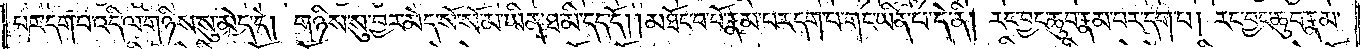པར་དག་པ་འདི་ལ་གཉིས་སུ་མེད་དེ། གཉིས་སུ་བྱར་མེད་སོ་སོ་མ་ཡིན་ཐ་མི་དད་དོ། །མཐོང་བ་པོ་རྣམ་པར་དག་པ་གང་ཡིན་པ་དེ་ནི། རང་བྱང་ཆུབ་རྣམ་པར་དག་པ། རང་བྱང་ཆུབ་རྣམ་
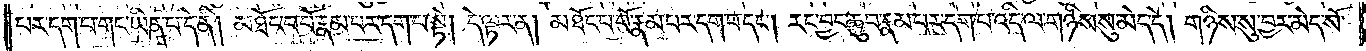པར་དག་པ་གང་ཡིན་པ་དེ་ནི། མཐོང་བ་པོ་རྣམ་པར་དག་པ་སྟེ། དེ་ལྟར་ན། མཐོང་བ་པོ་རྣམ་པར་དག་པ་དང༌། རང་བྱང་ཆུབ་རྣམ་པར་དག་པ་འདི་ལ་གཉིས་སུ་མེད་དེ། གཉིས་སུ་བྱར་མེད་སོ་
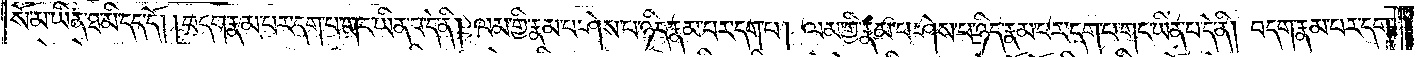སོ་མ་ཡིན་ཐ་མི་དད་དོ། །བདག་རྣམ་པར་དག་པ་གང་ཡིན་པ་དེ་ནི། ལམ་གྱི་རྣམ་པར་ཤེས་པ་ཉིད་རྣམ་པར་དག་པ། ལམ་གྱི་རྣམ་པར་ཤེས་པ་ཉིད་རྣམ་པར་དག་པ་གང་ཡིན་པ་དེ་ནི། བདག་རྣམ་པར་དག་
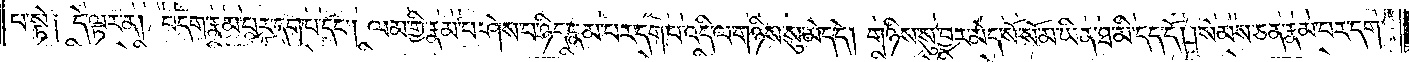པ་སྟེ༑ དེ་ལྟར་ན། བདག་རྣམ་པར་དག་པ་དང༌། ལམ་གྱི་རྣམ་པར་ཤེས་པ་ཉིད་རྣམ་པར་དག་པ་འདི་ལ་གཉིས་སུ་མེད་དེ། གཉིས་སུ་བྱར་མེད་སོ་སོ་མ་ཡིན་ཐ་མི་དད་དོ། །སེམས་ཅན་རྣམ་པར་དག་
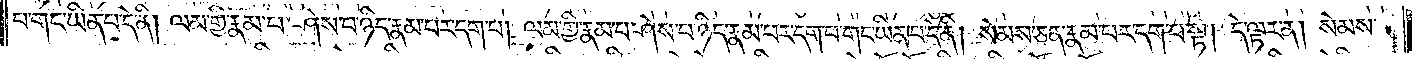པ་གང་ཡིན་པ་དེ་ནི། ལམ་གྱི་རྣམ་པ་ཤེས་པ་ཉིད་རྣམ་པར་དག་པ། ལམ་གྱི་རྣམ་པ་ཤེས་པ་ཉིད་རྣམ་པར་དག་པ་གང་ཡིན་པ་དེ་ནི། སེམས་ཅན་རྣམ་པར་དག་པ་སྟེ། དེ་ལྟར་ན། སེམས་
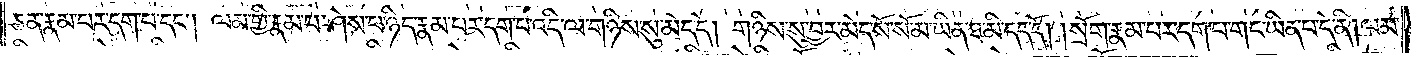ཅན་རྣམ་པར་དག་པ་དང༌། ལམ་གྱི་རྣམ་པར་ཤེས་པ་ཉིད་རྣམ་པར་དག་པ་འདི་ལ་གཉིས་སུ་མེད་དེ། གཉིས་སུ་བྱར་མེད་སོ་སོ་མ་ཡིན་ཐ་མི་དད་དོ། །སྲོག་རྣམ་པར་དག་པ་གང་ཡིན་པ་དེ་ནི། ལམ་
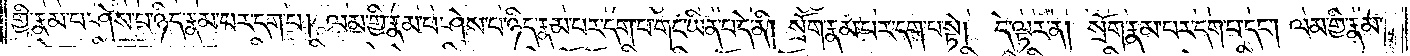གྱི་རྣམ་པ་ཤེས་པ་ཉིད་རྣམ་པར་དག་པ། ལམ་གྱི་རྣམ་པ་ཤེས་པ་ཉིད་རྣམ་པར་དག་པ་གང་ཡིན་པ་དེ་ནི། སྲོག་རྣམ་པར་དག་པ་སྟེ། དེ་ལྟར་ན་སྲོག་རྣམ་པར་དག་པ་དང༌། ལམ་གྱི་རྣམ་
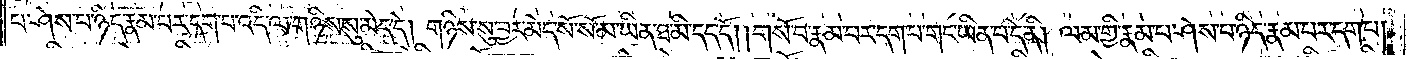པ་ཤེས་པ་ཉིད་རྣམ་པར་དག་པ་འདི་ལ་གཉིས་སུ་མེད་དེ། གཉིས་སུ་བྱར་མེད་སོ་སོ་མ་ཡིན་ཐ་མི་དད་དོ། །གསོ་བ་རྣམ་པར་དག་པ་གང་ཡིན་པ་དེ་ནི། ལམ་གྱི་རྣམ་པ་ཤེས་པ་ཉིད་རྣམ་པར་དག་པ།
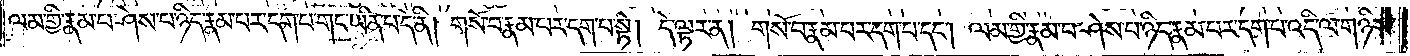ལམ་གྱི་རྣམ་པ་ཤེས་པ་ཉིད་རྣམ་པར་དག་པ་གང་ཡིན་པ་དེ་ནི། གསོ་བ་རྣམ་པར་དག་པ་སྟེ། དེ་ལྟར་ན། གསོ་བ་རྣམ་པར་དག་པ་དང༌། ལམ་གྱི་རྣམ་པ་ཤེས་པ་ཉིད་རྣམ་པར་དག་པ་འདི་ལ་གཉིས་
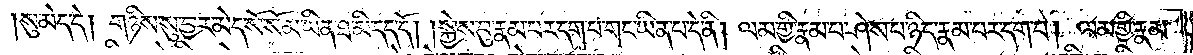སུ་མེད་དེ། གཉིས་སུ་བྱར་མེད་སོ་སོ་མ་ཡིན་ཐ་མི་དད་དོ། །སྐྱེས་བུ་རྣམ་པར་དག་པ་གང་ཡིན་པ་དེ་ནི། ལམ་གྱི་རྣམ་པ་ཤེས་པ་ཉིད་རྣམ་པར་དག་པ། ལམ་གྱི་རྣམ་
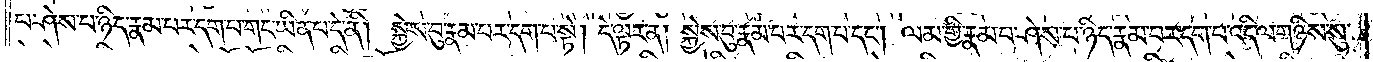པ་ཤེས་པ་ཉིད་རྣམ་པར་དག་པ་གང་ཡིན་པ་དེ་ནི། སྐྱེས་བུ་རྣམ་པར་དག་པ་སྟེ། དེ་ལྟར་ན། སྐྱེས་བུ་རྣམ་པར་དག་པ་དང༌། ལམ་གྱི་རྣམ་པ་ཤེས་པ་ཉིད་རྣམ་པར་དག་པ་འདི་ལ་གཉིས་སུ་
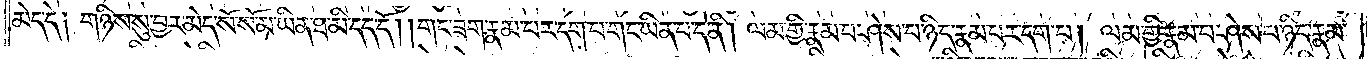མེད་དེ༑ གཉིས་སུ་བྱར་མེད་སོ་སོ་མ་ཡིན་ཐ་མི་དད་དོ། །གང་ཟག་རྣམ་པར་དག་པ་གང་ཡིན་པ་དེ་ནི། ལམ་གྱི་རྣམ་པ་ཤེས་པ་ཉིད་རྣམ་པར་དག་པ། ལམ་གྱི་རྣམ་པ་ཤེས་པ་ཉིད་རྣམ་
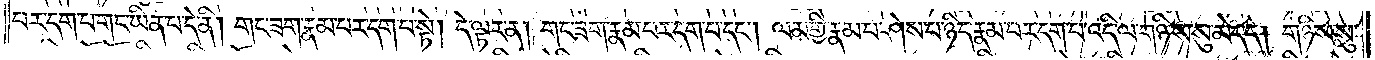པར་དག་པ་གང་ཡིན་པ་དེ་ནི། གང་ཟག་རྣམ་པར་དག་པ་སྟེ། དེ་ལྟར་ན། གང་ཟག་རྣམ་པར་དག་པ་དང༌། ལམ་གྱི་རྣམ་པ་ཤེས་པ་ཉིད་རྣམ་པར་དག་པ་འདི་ལ་གཉིས་སུ་མེད་དེ། གཉིས་སུ་
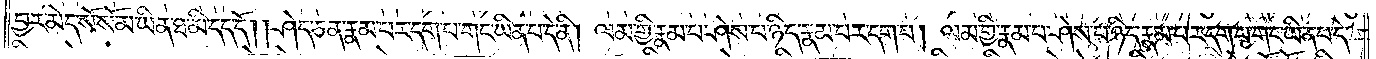བྱར་མེད་སོ་སོ་མ་ཡིན་ཐ་མི་དད་དོ། །ཤེད་ཅན་རྣམ་པར་དག་པ་གང་ཡིན་པ་དེ་ནི། ལམ་གྱི་རྣམ་པ་ཤེས་པ་ཉིད་རྣམ་པར་དག་པ། ལམ་གྱི་རྣམ་པ་ཤེས་པ་ཉིད་རྣམ་པར་དག་པ་གང་ཡིན་པ་དེ་
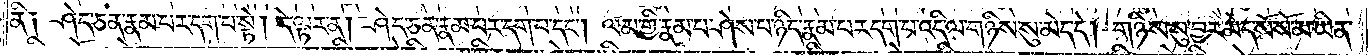ནི༑ ཤེད་ཅན་རྣམ་པར་དག་པ་སྟེ། དེ་ལྟར་ན། ཤེད་ཅན་རྣམ་པར་དག་པ་དང༌། ལམ་གྱི་རྣམ་པ་ཤེས་པ་ཉིད་རྣམ་པར་དག་པ་འདི་ལ་གཉིས་སུ་མེད་དེ། གཉིས་སུ་བྱར་མེད་སོ་སོ་མ་ཡིན་
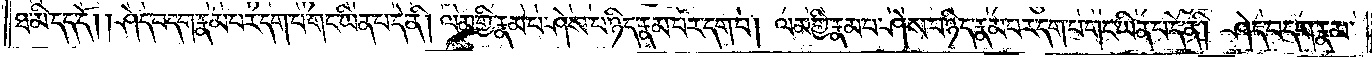ཐ་མི་དད་དོ། །ཤེད་བདག་རྣམ་པར་དག་པ་གང་ཡིན་པ་དེ་ནི། ལམ་གྱི་རྣམ་པ་ཤེས་པ་ཉིད་རྣམ་པར་དག་པ། ལམ་གྱི་རྣམ་པ་ཤེས་པ་ཉིད་རྣམ་པར་དག་པ་གང་ཡིན་པ་དེ་ནི། ཤེད་བདག་རྣམ་
